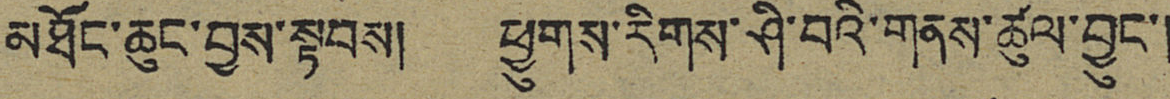མཐོང་ཆུང་བྱས་སྟབས། ཕྱུགས་རིགས་ཤི་བའི་གནས་ཚུལ་བྱུང་།
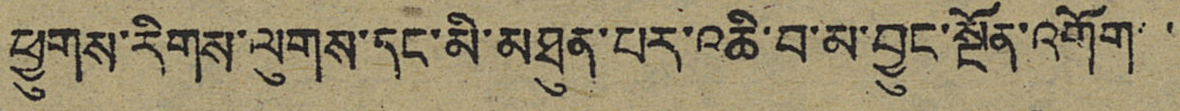ཕྱུགས་རིགས་ལུགས་དང་མི་མཐུན་པར་འཆི་བ་མ་བྱུང་སྔོན་འགོག་
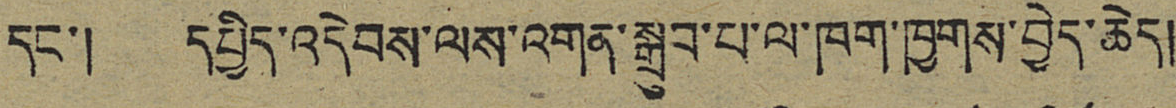དང་། དཔྱིད་འདེབས་ལས་འགན་སྒྲུབ་པ་ལ་ཁག་ཁྱགས་བྱེད་ཆེད།
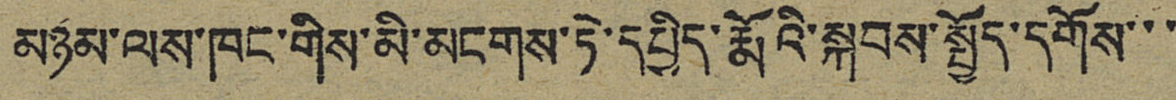མཉམ་ལས་ཁང་གིས་མི་མངགས་ཏེ་དཔྱིད་རྨོའི་སྐབས་སྤྱོད་དགོས་་་
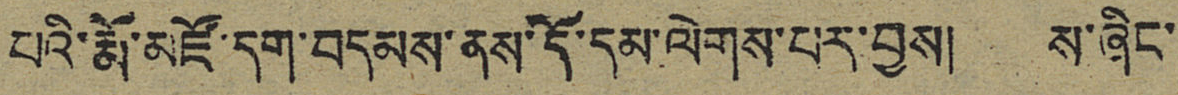པའི་རྨོ་མཛོ་དག་བདམས་ནས་དོ་དམ་ལེགས་པར་བྱས། ས་ཞིང་
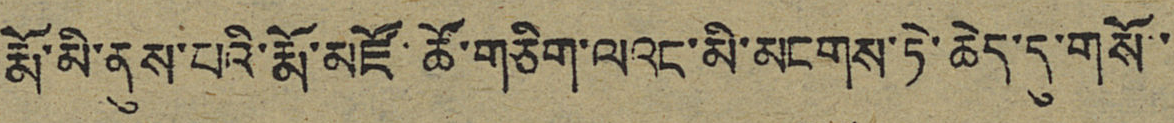རྨོ་མི་ནུས་པའི་རྨོ་མཛོ་ཚོ་གཅིག་ལའང་མི་མངགས་ཏེ་ཆེད་དུ་གསོ་
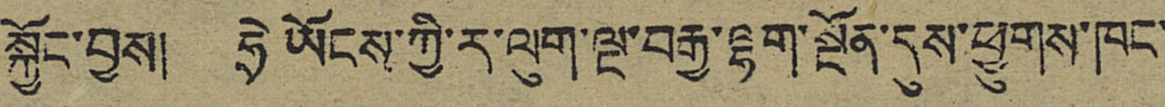སྐྱོང་བྱས། ཧྲེ་ཡོངས་ཀྱི་ར་ལུག་ལྔ་བརྒྱ་ལྷག་སྔོན་དུས་ཕྱུགས་ཁང་
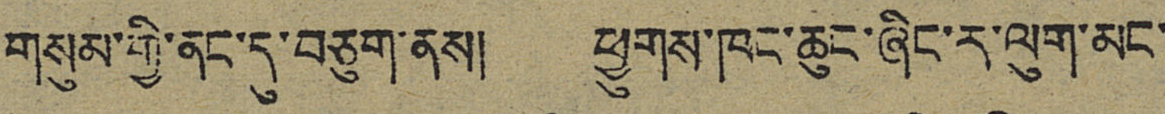གསུམ་གྱི་ནང་དུ་བཅུག་ནས། ཕྱུགས་ཁང་ཆུང་ཞིང་ར་ལུག་མང་
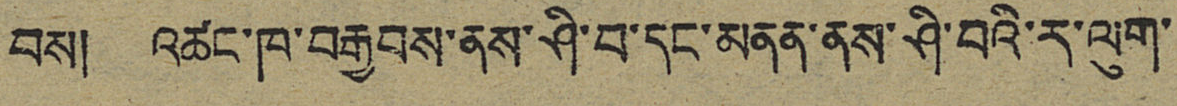བས། འཚང་ཁ་བརྒྱབས་ནས་ཤི་བ་དང་མནན་ནས་ཤི་བའི་ར་ལུག་
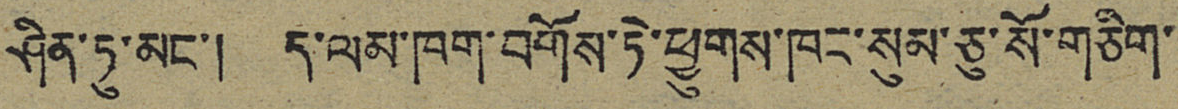ཤིན་ཏུ་མང་། ད་ལམ་ཁག་བགོས་ཏེ་ཕྱུགས་ཁང་སུམ་ཅུ་སོ་གཅིག་
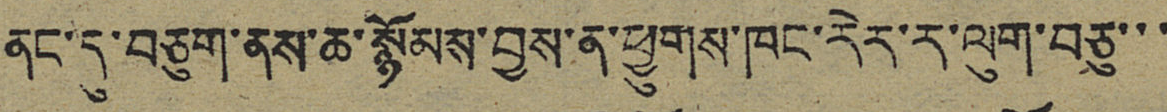ནང་དུ་བཅུག་ནས་ཆ་སྙོམས་བྱས་ན་ཕྱུགས་ཁང་རེར་ར་ལུག་བཅུ་་་
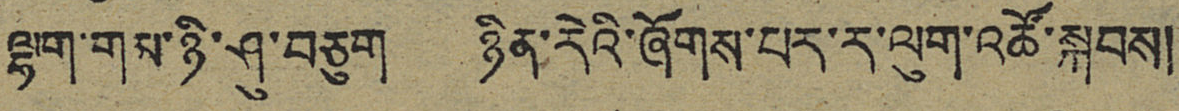ལྷག་གམ་ཉི་ཤུ་བཅུག ཉིན་རེའི་ཞོགས་པར་ར་ལུག་འཚོ་སྐབས།
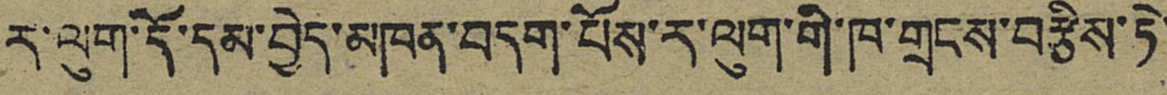ར་ལུག་དོ་དམ་བྱེད་མཁན་བདག་པོས་ར་ལུག་གི་ཁ་གྲངས་བརྩིས་ཏེ་
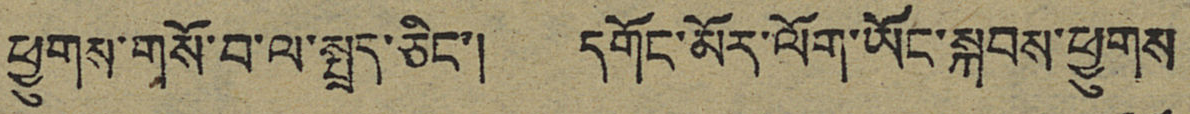ཕྱུགས་གསོ་བ་ལ་སྤྲད་ཅིང་། དགོང་མོར་ལོག་ཡོང་སྐབས་ཕྱུགས
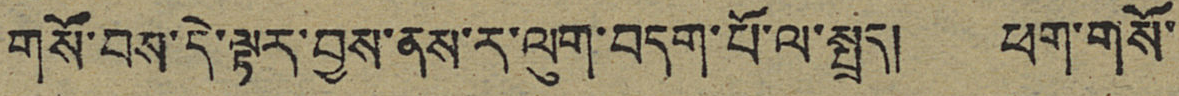གསོ་བས་དེ་ལྟར་བྱས་ནས་ར་ལུག་བདག་པོ་ལ་སྤྲད། ཕག་གསོ་
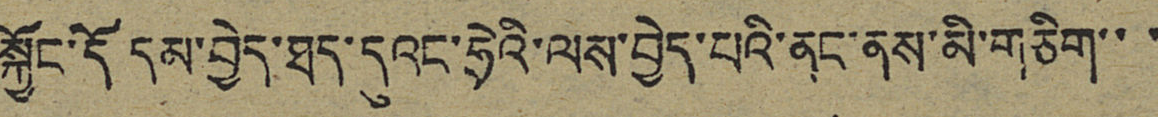སྐྱོང་དོ དམ་བྱེད་ཐད་དུའང་ཧྲེའི་ལས་བྱེད་པའི་ནང་ནས་མི་གཅིག་་་
